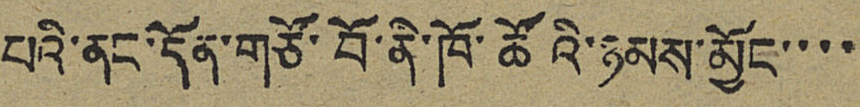པའི་ནང་དོན་གཙོ་བོ་ནི་ཁོ་ཚོའི་ཉམས་མྱོང་་་་
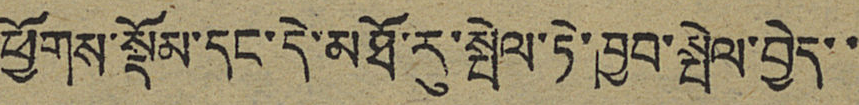ཕྱོགས་སྡོམ་དང་དེ་མཐོ་རུ་སྤེལ་ཏེ་ཁྱབ་སྦེལ་བྱེད་་
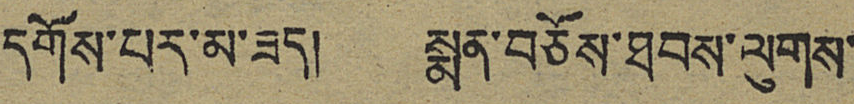དགོས་པར་མ་ཟད། སྨན་བཅོས་ཐབས་ལུགས་
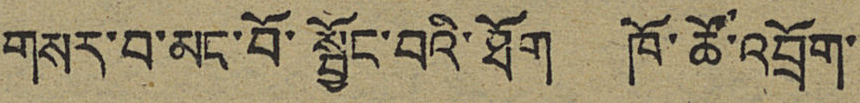གསར་བ་མང་བོ་སྦྱོང་བའི་ཐོག ཁོ་ཚོ་འབྲོག་
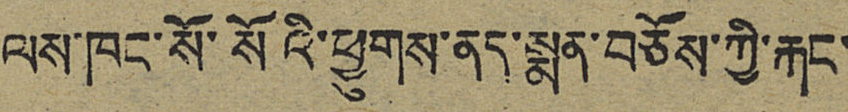ལས་ཁང་སོ་སོའི་ཕྱུགས་ནད་སྨན་བཅོས་ཀྱི་རྐང་
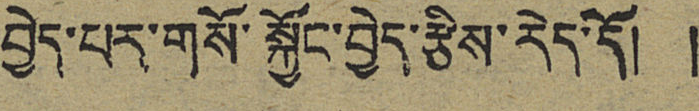བྱེད་པར་གསོ་སྐྱོང་བྱེད་རྩིས་རེད་དོ། །
